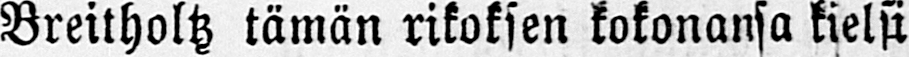Breitholtz tämän rikoksen kokonansa kielsi
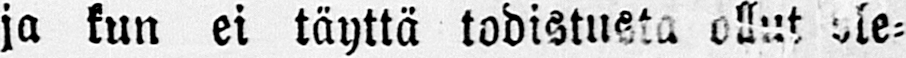ja kun ei täyttä todistusta ollut ole-
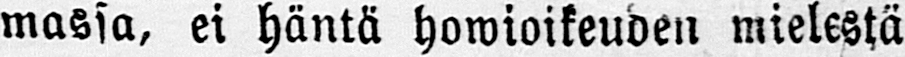massa, ei häntä howioikeuden mielestä
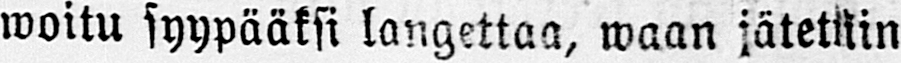woitu syypääksi langettaa, waan jätettiin
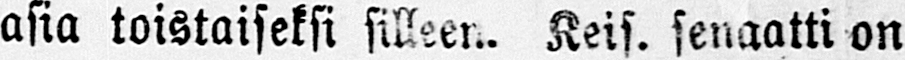asia toistaiseksi silleen. Keis. senaatti on
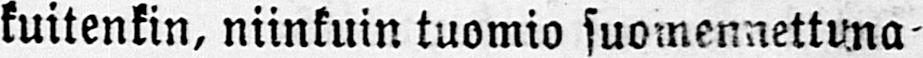kuitenkin, niinkuin tuomio suomennettuna-
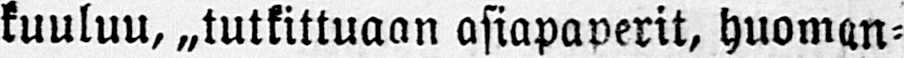kuuluu, „ tutkittuaan asiapaperit, huoman-
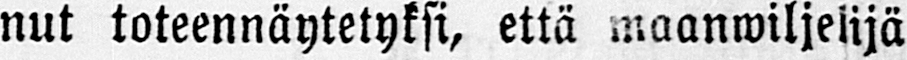nut toteennäytetyksi, että maanwiljelijä
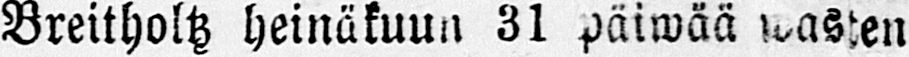Breitholz heinäkuun 31 päiwää wasten
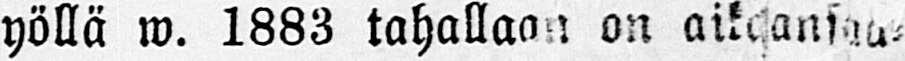yöllä w. 1883 tahallaan on aikaanssa-
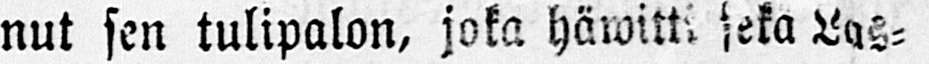nut sen tulipalon, joka häwitti sekä Las-
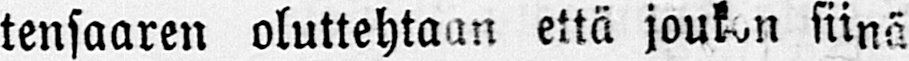tensaaren oluttehtaan että joukon siinä
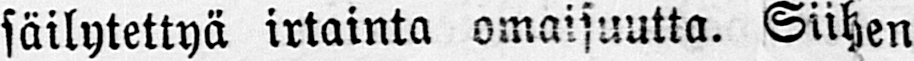säilytettyä irtainta omaisuutta. Siihen
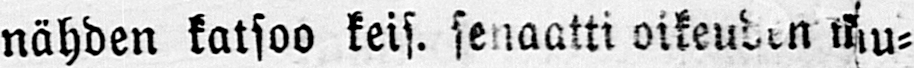nähden katsoo keis. senaatti oikeuden ku-
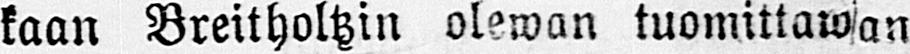kaan Breitholzin olewan tuomittawan
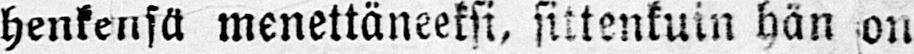henkensä menettäneeksi, sittenkuin hän on
